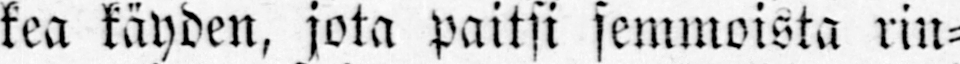kea käyden, jota paitsi semmoista rin-
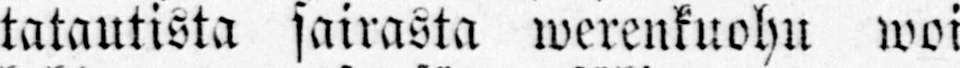tatautista sairasta wereukuohu woi
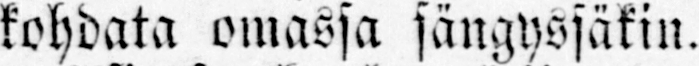kohdata omassa sängyssäkin.
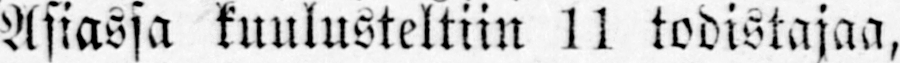Asiassa kuulusteltiin 11 todistajaa,
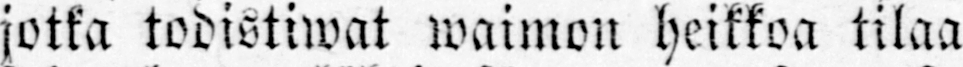jotka todistiwat waimon heikkoa tilaa
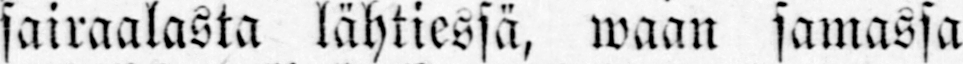sairaalasta lähtiessä, waan samassa
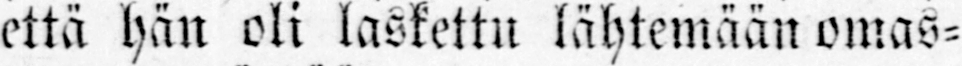että hän oli laskettu lähtemään omas-
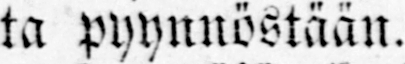ta pyynnöstään.
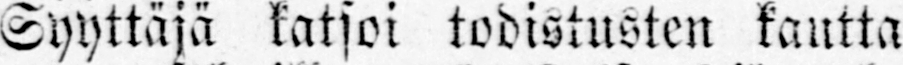Syyttäjä katsoi todistusten kantta
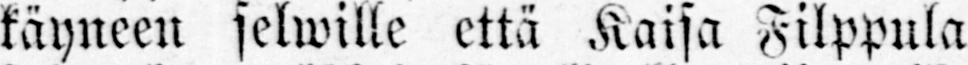käyneen selwille että Kaisa Filppula
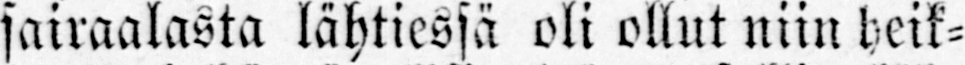sairaalasta lähtiessä oli ollut niin heik-
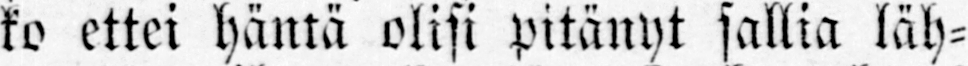ko ettei häntä olisi pitänyt sallia läh-
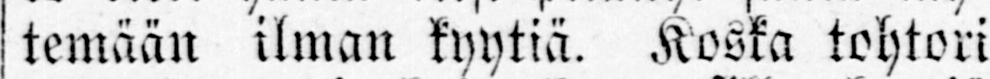temään ilman kyytiä. Koska tohtori
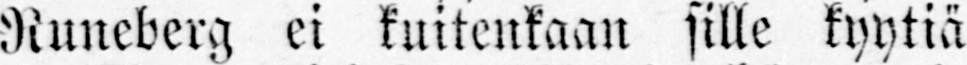Runeberg ei kuitenkaan sille kyytiä
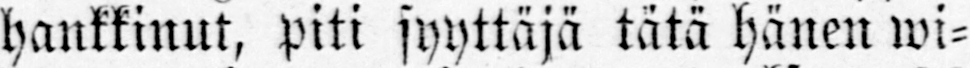hankkinut, piti syyttäjä tätä hänen wi-
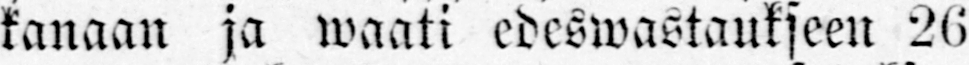kanaan ja waati edeswastaukseen 26
